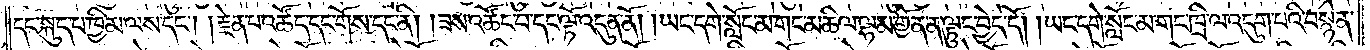དང་སྐུད་པ་ཁྱིམ་ལས་དང༌། །རྗེན་པ་འཚོད་དང་གོས་དང་ནི། །ཟས་འཚོད་པ་དང་ལྟོ་འདུན་ནོ། །ཡང་དགེ་སློང་མ་གང་མཆིལ་ལྷམ་གྱོན་ན་ལྟུང་བྱེད་དོ། །ཡང་དགེ་སློང་མ་གང་ཁྲི་ལ་འདུག་པའི་བསྙེན་
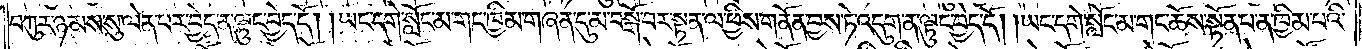བཀུར་ཉམས་སུ་ལེན་པར་བྱེད་ན་ལྟུང་བྱེད་དོ། །ཡང་དགེ་སློང་མ་གང་ཁྱིམ་གཞན་དུ་མ་བསྒོ་བར་སྟན་ལ་ཕྱིས་གནོན་བྱས་ཏེ་འདུག་ན་ལྟུང་བྱེད་དོ། །ཡང་དགེ་སློང་མ་གང་ཆོས་སྟོན་པ་ན་ཁྱིམ་པའི་
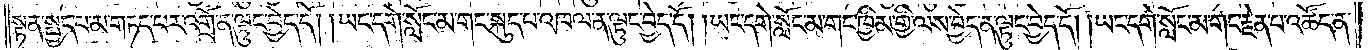སྟན་སྤྱད་པ་མ་གཏད་པར་འགྲོ་ན་ལྟུང་བྱེད་དོ། །ཡང་དགེ་སློང་མ་གང་སྐུད་པ་འཁལ་ན་ལྟུང་བྱེད་དོ། །ཡང་དགེ་སློང་མ་གང་ཁྱིམ་གྱི་ལས་བྱེད་ན་ལྟུང་བྱེད་དོ། །ཡང་དགེ་སློང་མ་གང་རྗེན་པ་འཚོད་ན་
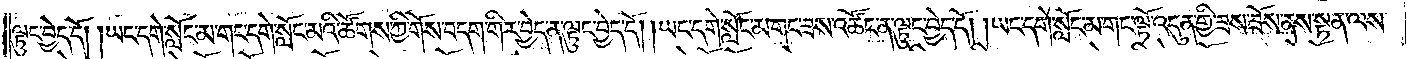ལྟུང་བྱེད་དོ། །ཡང་དགེ་སློང་མ་གང་དགེ་སློང་མའི་ཚོགས་ཀྱི་གོས་བདག་གིར་བྱེད་ན་ལྟུང་བྱེད་དོ། །ཡང་དགེ་སློང་མ་གང་ཟས་འཚོད་ན་ལྟུང་བྱེད་དོ། །ཡང་དགེ་སློང་མ་གང་ལྟོ་འདུན་གྱི་ཟས་ཟོས་ནས་སྟན་ལས་
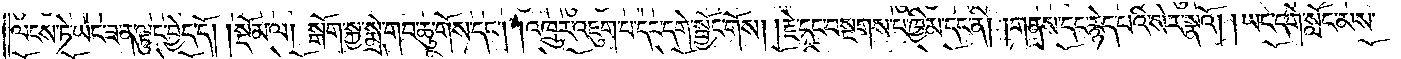ལངས་ཏེ་ཡང་ཟ་ན་ལྟུང་བྱེད་དོ།    །སྡོམ་ལ། སྒོག་སྐྱ་སྨྲེ་གབ་ཆུ་གོས་དང༌། །འཁྲུར་འཇུག་པ་དང་དགེ་སྦྱོང་གོས། །རྗེ་དང་སྔགས་པ་ཁྱིམ་དང་ནི། །གནས་དང་རྙེད་པའི་སེར་སྣའོ། །ཡང་དགེ་སློང་མས་
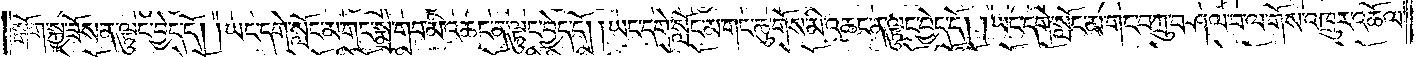སྒོག་སྐྱ་ཟོས་ན་ལྟུང་བྱེད་དོ། །ཡང་དགེ་སློང་མ་གང་སྨྲེ་གབ་མི་འཆང་ན་ལྟུང་བྱེད་དོ། །ཡང་དགེ་སློང་མ་གང་ཆུ་གོས་མི་འཆང་ན་ལྟུང་བྱེད་དོ། །ཡང་དགེ་སློང་མ་གང་བཀྲུ་བཤལ་བ་ལ་གོས་འཁྲུར་འཆོལ་
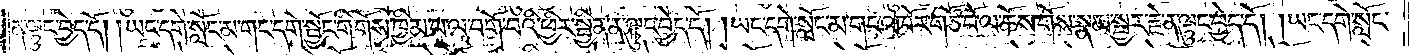ན་ལྟུང་བྱེད་དོ། །ཡང་དགེ་སློང་མ་གང་དགེ་སྦྱོང་གི་གོས་ཁྱིམ་པ་ལ་བགོ་བའི་ཕྱིར་སྦྱིན་ན་ལྟུང་བྱེད་དོ། །ཡང་དགེ་སློང་མ་གང་འཁོར་གཙོ་བོ་ལ་ཆོས་གོས་སྣམ་སྦྱར་རྗེ་ན་ལྟུང་བྱེད་དོ། །ཡང་དགེ་སློང་
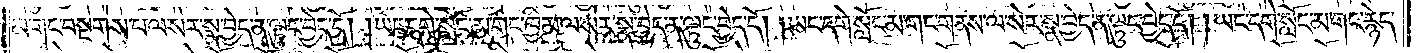མ་གང་བསྔགས་པ་ལ་སེར་སྣ་བྱེད་ན་ལྟུང་བྱེད་དོ། །ཡང་དགེ་སློང་མ་གང་ཁྱིམ་ལ་སེར་སྣ་བྱེད་ན་ལྟུང་བྱེད་དོ། །ཡང་དགེ་སློང་མ་གང་གནས་ལ་སེར་སྣ་བྱེད་ན་ལྟུང་བྱེད་དོ། །ཡང་དགེ་སློང་མ་གང་རྙེད་
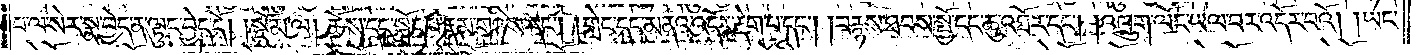པ་ལ་སེར་སྣ་བྱེད་ན་ལྟུང་བྱེད་དོ།    །སྡོམ་ལ། ཆོས་དང་སྐྲོད་པ་རྣམ་གཉིས་དང༌། གླེང་དང་མནའ་འདོར་རྡེག་པ་དང༌། །བརྙས་ཐབས་སྤྱོ་དང་ཆུ་འཐོར་དང༌། །འཁྲུག་ལོང་ཡལ་བར་འདོར་བའོ། །ཡང་
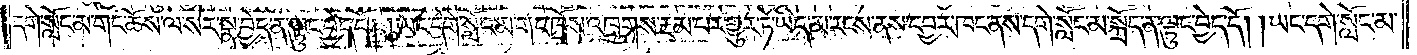དགེ་སློང་མ་གང་ཆོས་ལ་སེར་སྣ་བྱེད་ན་ལྟུང་བྱེད་དོ། །ཡང་དགེ་སློང་མ་གང་ཁྲོས་འཁྲུགས་རྔམ་པར་གྱུར་ཏེ་ཡིད་མ་རངས་ནས་དབྱར་ཁང་ནས་དགེ་སློང་མ་སྐྲོད་ན་ལྟུང་བྱེད་དོ། །ཡང་དགེ་སློང་མ་
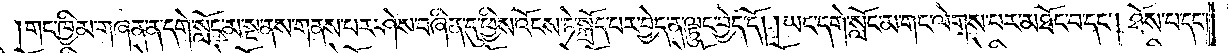གང་ཁྱིམ་གཞན་ན་དགེ་སློང་མ་སྔ་ནས་གནས་པར་ཤེས་བཞིན་དུ་ཕྱིས་འོངས་ཏེ་སྐྲོད་པར་བྱེད་ན་ལྟུང་བྱེད་དོ། །ཡང་དགེ་སློང་མ་གང་ལེགས་པར་མཐོང་བ་དང༌། ཐོས་པ་དང༌།
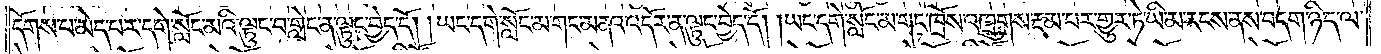དོགས་པ་མེད་པར་དགེ་སློང་མའི་ལྟུང་བ་གླེང་ན་ལྟུང་བྱེད་དོ། །ཡང་དགེ་སློང་མ་གང་མནའ་འདོར་ན་ལྟུང་བྱེད་དོ། །ཡང་དགེ་སློང་མ་གང་ཁྲོས་འཁྲུགས་རྔམ་པར་གྱུར་ཏེ་ཡི་མ་རངས་ནས་བདག་ཉིད་ལ་
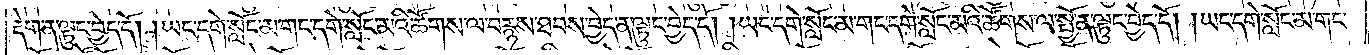རྡེག་ན་ལྟུང་བྱེད་དོ། །ཡང་དགེ་སློང་མ་གང་དགེ་སློང་མའི་ཚོགས་ལ་བརྙས་ཐབས་བྱེད་ན་ལྟུང་བྱེད་དོ། །ཡང་དགེ་སློང་མ་གང་དགེ་སློང་མའི་ཚོགས་ལ་སྤྱོ་ན་ལྟུང་བྱེད་དོ། །ཡང་དགེ་སློང་མ་གང་
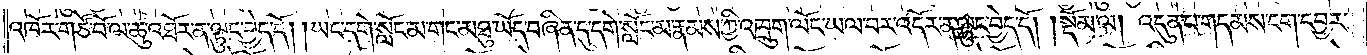འཁོར་གཙོ་བོ་ལ་ཆུ་འཐོར་ན་ལྟུང་བྱེད་དོ། །ཡང་དགེ་སློང་མ་གང་མཐུ་ཡོད་བཞིན་དུ་དགེ་སློང་མ་རྣམས་ཀྱི་འཁྲུག་ལོང་ཡལ་བར་འདོར་ན་ལྟུང་བྱེད་དོ།    །སྡོམ་ལ། འདུན་པ་གདམས་ངག་དབྱར་
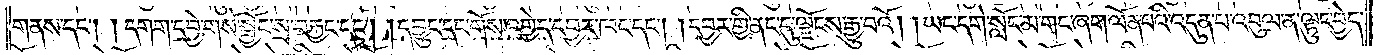གནས་དང༌། །དགག་དབྱེ་གསོ་སྦྱོང་སྲས་བརྐྱང་དང༌། །དབྱུང་དང་གོས་འགྱེད་དབྱར་ཁང་དང༌། །དབྱར་གྱི་ནང་དུ་ལྗོངས་རྒྱུ་བའོ། །ཡང་དགེ་སློང་མ་གང་ཞག་ལོན་པའི་འདུན་པ་འབུལ་ན་ལྟུང་བྱེད་
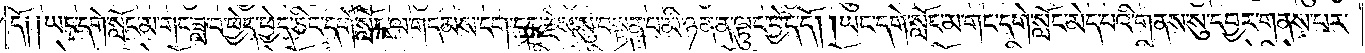དོ༑ ༑ཡང་དགེ་སློང་མ་གང་ཟླ་བ་ཕྱེད་ཕྱེད་ཅིང་དགེ་སློང་ལ་གདམས་ངག་དང་རྗེས་སུ་བསྟན་པ་མི་ཉན་ན་ལྟུང་བྱེད་དོ། །ཡང་དགེ་སློང་མ་གང་དགེ་སློང་མེད་པའི་གནས་སུ་དབྱར་གནས་པར་
